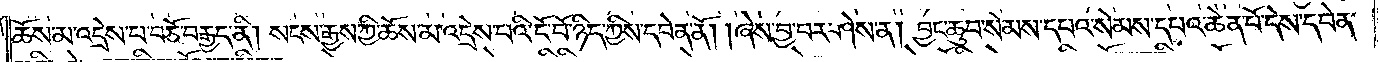ཆེས་མ་འདྲེས་པ་བཅོ་བརྒྱད་ནི། སངས་རྒྱས་ཀྱི་ཆོས་མ་འདྲེས་པའི་ངོ་བོ་ཉིད་ཀྱིས་དབེན་ནོ། །ཞེས་བྱ་བར་ཤེས་ན། བྱང་ཆུབ་སེམས་དཔའ་སེམས་དཔའ་ཆེན་པོ་དེས་དབེན་
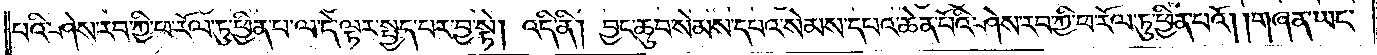པའི་ཤེས་རབ་ཀྱི་ཕ་རོལ་ཏུ་ཕྱིན་པ་ལ་དེ་ལྟར་སྤྱད་པར་བྱ་སྟེ། འདི་ནི། བྱང་ཆུབ་སེམས་དཔའ་སེམས་དཔའ་ཆེན་པོའི་ཤེས་རབ་ཀྱི་ཕ་རོལ་ཏུ་ཕྱིན་པའོ། །གཞན་ཡང་
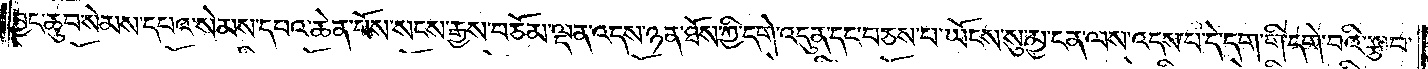བྱང་ཆུབ་སེམས་དཔའ་སེམས་དཔའ་ཆེན་པོས་སངས་རྒྱས་བཅོམ་ལྡན་འདས་ཉན་ཐོས་ཀྱི་དགེ་འདུན་དང་བཅས་པ་ཡོངས་སུ་མྱ་ངན་ལས་འདས་པ་དེ་དག་གི་དགེ་བའི་རྩ་བ་
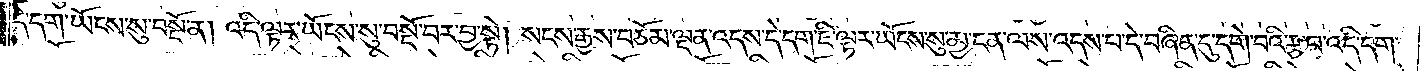དེ་དག་ཡོངས་སུ་བསྔོ་ན། འདི་ལྟར་ཡོངས་སུ་བསྔོ་བར་བྱ་སྟེ། སངས་རྒྱས་བཅོམ་ལྡན་འདས་དེ་དག་ཇི་ལྟར་ཡོངས་སུ་མྱ་ངན་ལས་འདས་པ་དེ་བཞིན་དུ་དགེ་བའི་རྩ་བའི་དེ་དག་
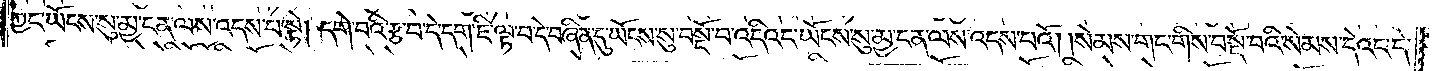ཀྱང་ཡོངས་སུ་མྱ་ངན་ལས་འདས་པ་སྟེ། དགེ་བའི་རྩ་བ་དེ་དག་ཇི་ལྟ་བ་དེ་བཞིན་དུ་ཡོངས་སུ་བསྔོ་བ་འདིའང་ཡོངས་སུ་མྱ་ངན་ལས་འདས་པའོ། །སེམས་གང་གིས་བསྔོ་བའི་སེམས་དེའང་དེ་
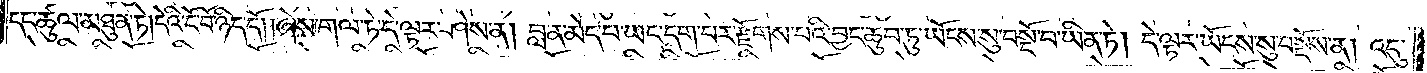དང་ཚུལ་མཐུན་ཏེ། དེའི་ངོ་བོ་ཉིད་དོ། །ཞེས་གལ་ཏེ་དེ་ལྟར་ཤེས་ན། བླ་ན་མེད་པ་ཡང་དག་པར་རྫོགས་པའི་བྱང་ཆུབ་ཏུ་ཡོངས་སུ་བསྔོ་བ་ཡིན་ཏེ། དེ་ལྟར་ཡོངས་སུ་བསྔོས་ན། འདུ་
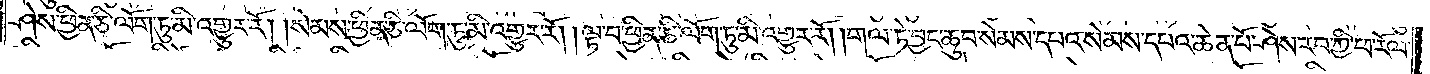ཤེས་ཕྱིན་ཅི་ལོག་ཏུ་མི་འགྱུར་རོ། །སེམས་ཕྱིན་ཅི་ལོག་ཏུ་མི་འགྱུར་རོ། །ལྟ་བ་ཕྱིན་ཅི་ལོག་ཏུ་མི་འགྱུར་རོ། །གལ་ཏེ་བྱང་ཆུབ་སེམས་དཔའ་སེམས་དཔའ་ཆེན་པོ་ཤེས་རབ་ཀྱི་ཕ་རོལ་
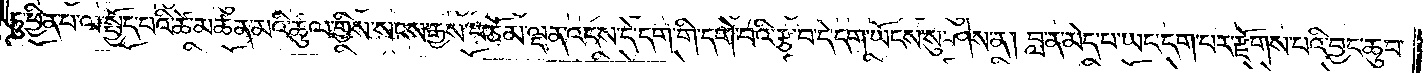ཏུ་ཕྱིན་པ་ལ་སྤྱོད་པའི་ཚེ་མཚན་མའི་ཚུལ་གྱིས་སངས་རྒྱས་བཅོམ་ལྡན་འདས་དེ་དག་གི་དགེ་བའི་རྩ་བ་དེ་དག་ཡོངས་སུ་ཤེས་ན། བླ་ན་མེད་པ་ཡང་དག་པར་རྫོགས་པའི་བྱང་ཆུབ་
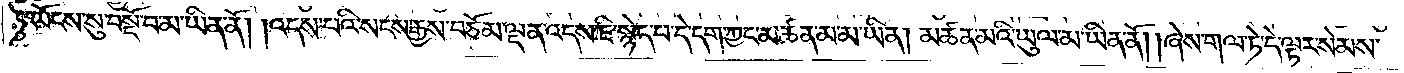ཏུ་ཡོངས་སུ་བསྔོ་བ་མ་ཡིན་ནོ། །འདས་པའི་སངས་རྒྱས་བཅོམ་ལྡན་འདས་ཇི་སྙེད་པ་དེ་དག་ཀྱང་མཚན་མ་མ་ཡིན། མཚན་མའི་ཡུལ་མ་ཡིན་ནོ། །ཞེས་གལ་ཏེ་དེ་ལྟར་སེམས་
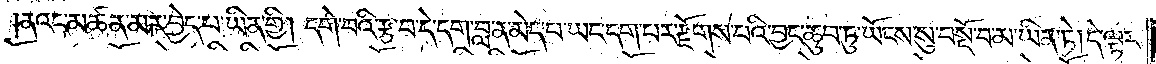ནའང་མཚན་མར་བྱེད་པ་ཡིན་གྱི། དགེ་བའི་རྩ་བ་དེ་དག་བླ་ན་མེད་པ་ཡང་དག་པར་རྫོགས་པའི་བྱང་ཆུབ་ཏུ་ཡོངས་སུ་བསྔོ་བ་མ་ཡིན་ཏེ། དེ་ལྟར་
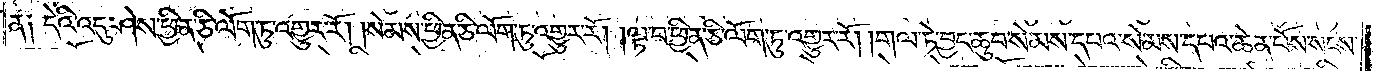ན༑ དེའི་འདུ་ཤེས་ཕྱིན་ཅི་ལོག་ཏུ་འགྱུར་རོ། །སེམས་ཕྱིན་ཅི་ལོག་ཏུ་འགྱུར་རོ། །ལྟ་བ་ཕྱིན་ཅི་ལོག་ཏུ་འགྱུར་རོ། །གལ་ཏེ་བྱང་ཆུབ་སེམས་དཔའ་སེམས་དཔའ་ཆེན་པོས་སངས་
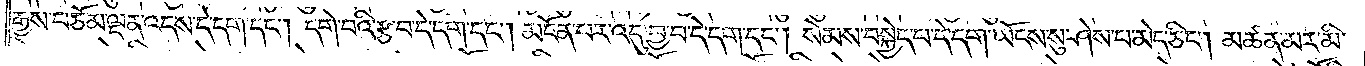རྒྱས་བཅོམ་ལྡན་འདས་དེ་དག་དང༌། དགེ་བའི་རྩ་བ་དེ་དག་དང༌། མངོན་པར་འདུ་བྱ་བ་དེ་དག་དང༌། སེམས་བསྐྱེད་པ་དེ་དག་ཡོངས་སུ་ཤེས་པ་མེད་ཅིང༌། མཚན་མར་མི་
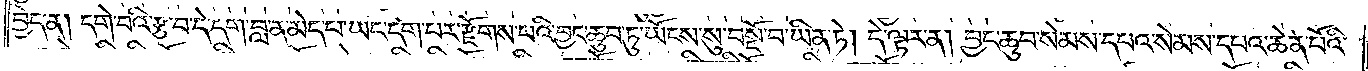བྱེད་ན། དགེ་བའི་རྩ་བ་དེ་དག་བླ་ན་མེད་པ་ཡང་དག་པར་རྫོགས་པའི་བྱང་ཆུབ་ཏུ་ཡོངས་སུ་བསྔོ་བ་ཡིན་ཏེ། དེ་ལྟར་ན། བྱང་ཆུབ་སེམས་དཔའ་སེམས་དཔའ་ཆེན་པོའི་
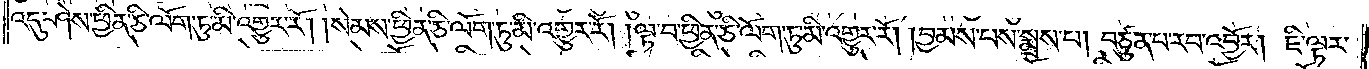འདུ་ཤེས་ཕྱིན་ཅི་ལོག་ཏུ་མི་འགྱུར་རོ། །སེམས་ཕྱིན་ཅི་ལོག་ཏུ་མི་འགྱུར་རོ། །ལྟ་བ་ཕྱིན་ཅི་ལོག་ཏུ་མི་འགྱུར་རོ། །བྱམས་པས་སྨྲས་པ། བཙུན་པ་རབ་འབྱོར། ཇི་ལྟར་
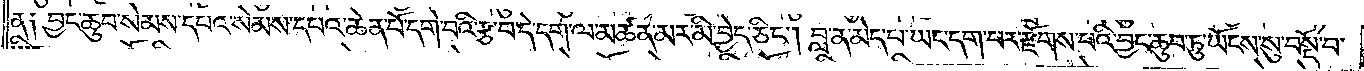ན༑ བྱང་ཆུབ་སེམས་དཔའ་སེམས་དཔའ་ཆེན་པོ་དགེ་བའི་རྩ་བ་དེ་དག་ལ་མཚན་མར་མི་བྱེད་ཅིང༌། བླ་ན་མེད་པ་ཡང་དག་པར་རྫོགས་པའི་བྱང་ཆུབ་ཏུ་ཡོངས་སུ་བསྔོ་བ་
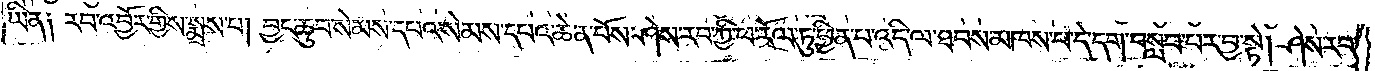ཡིན༑ རབ་འབྱོར་གྱིས་སྨྲས་པ། བྱང་ཆུབ་སེམས་དཔའ་སེམས་དཔའ་ཆེན་པོས་ཤེས་རབ་ཀྱི་ཕ་རོལ་ཏུ་ཕྱིན་པ་འདི་ལ་ཐབས་མཁས་པ་དེ་དག་བསླབ་པར་བྱ་སྟེ། ཤེས་རབ་
